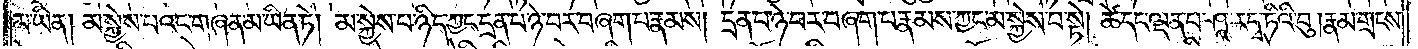མ་ཡིན། མ་སྐྱེས་པའང་གཞན་མ་ཡིན་ཏེ། མ་སྐྱེས་པ་ཉིད་ཀྱང་དྲན་པ་ཉེ་བར་བཞག་པ་རྣམས། དྲན་པ་ཉེ་བར་བཞག་པ་རྣམས་ཀྱང་མ་སྐྱེས་པ་སྟེ། ཚེ་དང་ལྡན་པ་ཤཱ་ར་དྭ་ཏིའི་བུ། རྣམ་གྲངས་
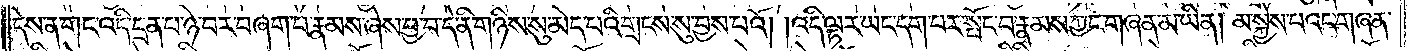དེས་ན་གང་འདི་དྲན་པ་ཉེ་བར་བཞག་པ་རྣམས་ཞེས་བྱ་བ་དེ་ནི་གཉིས་སུ་མེད་པའི་གྲངས་སུ་བྱས་པའོ། །འདི་ལྟར་ཡང་དག་པར་སྤོང་བ་རྣམས་ཀྱང་གཞན་མ་ཡིན། མ་སྐྱེས་པའང་གཞན་
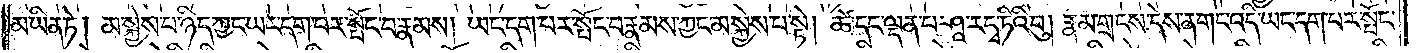མ་ཡིན་ཏེ། མ་སྐྱེས་པ་ཉིད་ཀྱང་ཡང་དག་པར་སྤོང་བ་རྣམས། ཡང་དག་པར་སྤོང་བ་རྣམས་ཀྱང་མ་སྐྱེས་པ་སྟེ། ཚེ་དང་ལྡན་པ་ཤཱ་ར་དྭ་ཏིའི་བུ། རྣམ་གྲངས་དེས་ན་གང་འདི་ཡང་དག་པར་སྤོང་
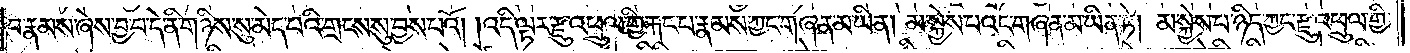བ་རྣམས་ཞེས་བྱ་བ་དེ་ནི་གཉིས་སུ་མེད་པའི་གྲངས་སུ་བྱས་པའོ། །འདི་ལྟར་རྫུ་འཕྲུལ་གྱི་རྐང་པ་རྣམས་ཀྱང་གཞན་མ་ཡིན། མ་སྐྱེས་པའང་གཞན་མ་ཡིན་ཏེ། མ་སྐྱེས་པ་ཉིད་ཀྱང་རྫུ་འཕྲུལ་གྱི་
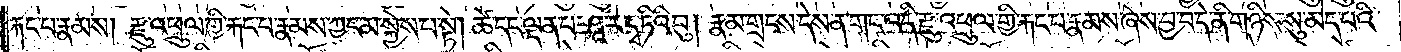རྐང་པ་རྣམས། རྫུ་འཕྲུལ་གྱི་རྐང་པ་རྣམས་ཀྱང་མ་སྐྱེས་པ་སྟེ། ཚེ་དང་ལྡན་པ་ཤཱ་ར་དྭ་ཏིའི་བུ། རྣམ་གྲངས་དེས་ན་གང་འདི་རྫུ་འཕྲུལ་གྱི་རྐང་པ་རྣམས་ཞེས་བྱ་བ་དེ་ནི་གཉིས་སུ་མེད་པའི་
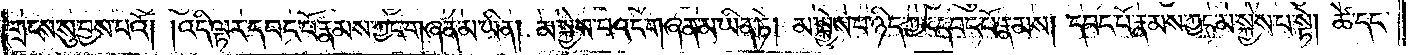གྲངས་སུ་བྱས་པའོ། །འདི་ལྟར་དབང་པོ་རྣམས་ཀྱང་གཞན་མ་ཡིན། མ་སྐྱེས་པའང་གཞན་མ་ཡིན་ཏེ། མ་སྐྱེས་པ་ཉིད་ཀྱང་དབང་པོ་རྣམས། དབང་པོ་རྣམས་ཀྱང་མ་སྐྱེས་པ་སྟེ། ཚེ་དང་
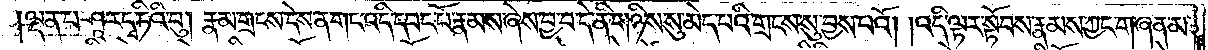ལྡན་པ་ཤཱ་ར་དྭ་ཏིའི་བུ། རྣམ་གྲངས་དེས་ན་གང་འདི་དབང་པོ་རྣམས་ཞེས་བྱ་བ་དེ་ནི་གཉིས་སུ་མེད་པའི་གྲངས་སུ་བྱས་པའོ། །འདི་ལྟར་སྟོབས་རྣམས་ཀྱང་གཞན་མ་
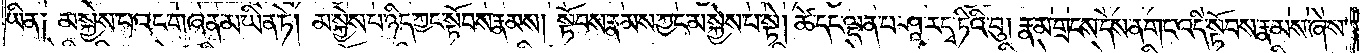ཡིན༏ མ་སྐྱེས་པའང་གཞན་མ་ཡིན་ཏེ། མ་སྐྱེས་པ་ཉིད་ཀྱང་སྟོབས་རྣམས། སྟོབས་རྣམས་ཀྱང་མ་སྐྱེས་པ་སྟེ། ཚེ་དང་ལྡན་པ་ཤཱ་ར་དྭ་ཏིའི་བུ། རྣམ་གྲངས་དེས་ན་གང་འདི་སྟོབས་རྣམས་ཞེས་
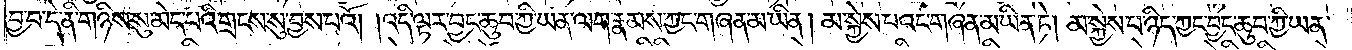བྱ་བ་དེ་ནི་གཉིས་སུ་མེད་པའི་གྲངས་སུ་བྱས་པའོ། །འདི་ལྟར་བྱང་ཆུབ་ཀྱི་ཡན་ལག་རྣམས་ཀྱང་གཞན་མ་ཡིན། མ་སྐྱེས་པའང་གཞན་མ་ཡིན་ཏེ། མ་སྐྱེས་པ་ཉིད་ཀྱང་བྱང་ཆུབ་ཀྱི་ཡན་
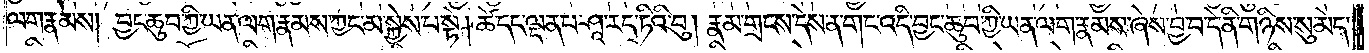ལག་རྣམས། བྱང་ཆུབ་ཀྱི་ཡན་ལག་རྣམས་ཀྱང་མ་སྐྱེས་པ་སྟེ། ཚེ་དང་ལྡན་པ་ཤཱ་ར་དྭ་ཏིའི་བུ། རྣམ་གྲངས་དེས་ན་གང་འདི་བྱང་ཆུབ་ཀྱི་ཡན་ལག་རྣམས་ཞེས་བྱ་བ་དེ་ནི་གཉིས་སུ་མེད་
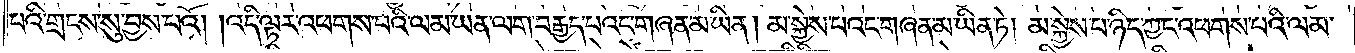པའི་གྲངས་སུ་བྱས་པའོ། །འདི་ལྟར་འཕགས་པའི་ལམ་ཡན་ལག་བརྒྱད་པའང་གཞན་མ་ཡིན། མ་སྐྱེས་པའང་གཞན་མ་ཡིན་ཏེ། མ་སྐྱེས་པ་ཉིད་ཀྱང་འཕགས་པའི་ལམ་
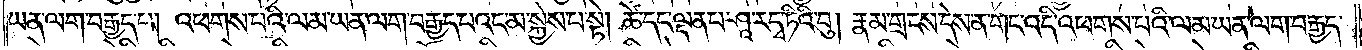ཡན་ལག་བརྒྱད་པ། འཕགས་པའི་ལམ་ཡན་ལག་བརྒྱད་པའང་མ་སྐྱེས་པ་སྟེ། ཚེ་དང་ལྡན་པ་ཤཱ་ར་དྭ་ཏིའི་བུ། རྣམ་གྲངས་དེས་ན་གང་འདི་འཕགས་པའི་ལམ་ཡན་ལག་བརྒྱད་
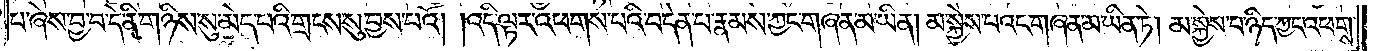པ་ཞེས་བྱ་བ་དེ་ནི་གཉིས་སུ་མེད་པའི་གྲངས་སུ་བྱས་པའོ། །འདི་ལྟར་འཕགས་པའི་བདེན་པ་རྣམས་ཀྱང་གཞན་མ་ཡིན། མ་སྐྱེས་པའང་གཞན་མ་ཡིན་ཏེ། མ་སྐྱེས་པ་ཉིད་ཀྱང་འཕགས་
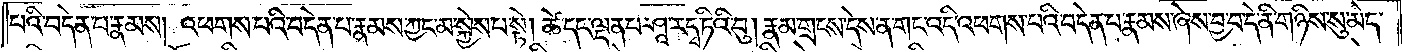པའི་བདེན་པ་རྣམས། འཕགས་པའི་བདེན་པ་རྣམས་ཀྱང་མ་སྐྱེས་པ་སྟེ། ཚེ་དང་ལྡན་པ་ཤཱ་ར་དྭ་ཏིའི་བུ། རྣམ་གྲངས་དེས་ན་གང་འདི་འཕགས་པའི་བདེན་པ་རྣམས་ཞེས་བྱ་བ་དེ་ནི་གཉིས་སུ་མེད་
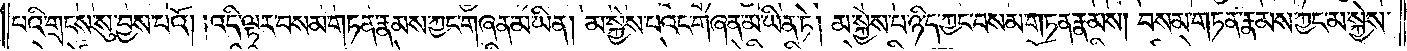པའི་གྲངས་སུ་བྱས་པའོ། །འདི་ལྟར་བསམ་གཏན་རྣམས་ཀྱང་གཞན་མ་ཡིན། མ་སྐྱེས་པའང་གཞན་མ་ཡིན་ཏེ། མ་སྐྱེས་པ་ཉིད་ཀྱང་བསམ་གཏན་རྣམས། བསམ་གཏན་རྣམས་ཀྱང་མ་སྐྱེས་
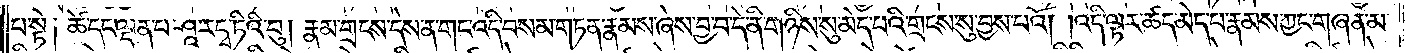པ་སྟེ༏ ཚེ་དང་ལྡན་པ་ཤཱ་ར་དྭ་ཏིའི་བུ། རྣམ་གྲངས་དེས་ན་གང་འདི་བསམ་གཏན་རྣམས་ཞེས་བྱ་བ་དེ་ནི་གཉིས་སུ་མེད་པའི་གྲངས་སུ་བྱས་པའོ། །འདི་ལྟར་ཚད་མེད་པ་རྣམས་ཀྱང་གཞན་མ་
